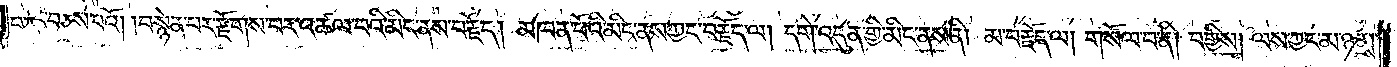པ་དང་བཅས་པའོ། །བསྙེན་པར་རྫོགས་པར་འཚལ་བའི་མིང་ནས་བརྗོད། མཁན་པོའི་མིང་ནས་ཀྱང་བརྗོད་ལ། དགེ་འདུན་གྱི་མིང་ནས་ནི། མ་བརྗོད་ལ། གསོལ་བ་ནི། བགྱིས། ལས་ཀྱང་མ་ཉམས་
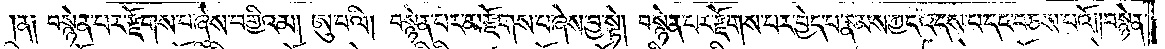ན༑ བསྙེན་པར་རྫོགས་པ་ཞེས་བགྱིའམ། ཨུ་པ་ལི། བསྙེན་པར་མ་རྫོགས་པ་ཞེས་བྱ་སྟེ། བསྙེན་པར་རྫོགས་པར་བྱེད་པ་རྣམས་ཀྱང་འདས་པ་དང་བཅས་པའོ། །བསྙེན་
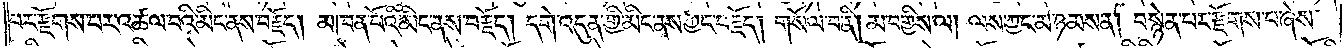པར་རྫོགས་པར་འཚལ་བའི་མིང་ནས་བརྗོད། མཁན་པོའི་མིང་ནས་བརྗོད། དགེ་འདུན་གྱི་མིང་ནས་ཀྱང་བརྗོད། གསོལ་བ་ནི། མ་བགྱིས་ལ། ལས་ཀྱང་མ་ཉམས་ན། བསྙེན་པར་རྫོགས་པ་ཞེས་
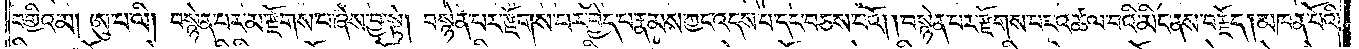བགྱིའམ། ཨུ་པ་ལི། བསྙེན་པར་མ་རྫོགས་པ་ཞེས་བྱ་སྟེ། བསྙེན་པར་རྫོགས་པར་བྱེད་པ་རྣམས་ཀྱང་འདས་པ་དང་བཅས་པའོ། །བསྙེན་པར་རྫོགས་པར་འཚལ་བའི་མིང་ནས་བརྗོད། མཁན་པོའི་
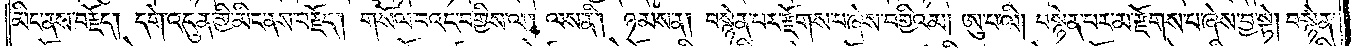མིང་ནས་བརྗོད། དགེ་འདུན་གྱི་མིང་ནས་བརྗོད། གསོལ་བའང་བགྱིས་ལ། ལས་ནི། ཉམས་ན། བསྙེན་པར་རྫོགས་པ་ཞེས་བགྱིའམ། ཨུ་པ་ལི། བསྙེན་པར་མ་རྫོགས་པ་ཞེས་བྱ་སྟེ། བསྙེན་
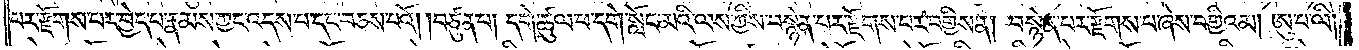པར་རྫོགས་པར་བྱེད་པ་རྣམས་ཀྱང་འདས་པ་དང་བཅས་པའོ། །བཙུན་པ། དགེ་ཚུལ་ཕ་དགེ་སློང་མའི་ལས་ཀྱིས་བསྙེན་པར་རྫོགས་པར་བགྱིས་ན། བསྙེན་པར་རྫོགས་པ་ཞེས་བགྱིའམ། ཨུ་པ་ལི།
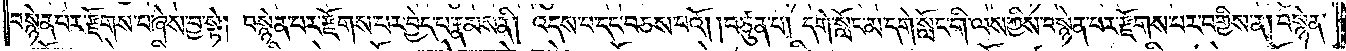བསྙེན་པར་རྫོགས་པ་ཞེས་བྱ་སྟེ། བསྙེན་པར་རྫོགས་པར་བྱེད་པ་རྣམས་ནི། འདས་པ་དང་བཅས་པའོ། །བཙུན་པ། དགེ་སློང་མ་དགེ་སློང་གི་ལས་ཀྱིས་བསྙེན་པར་རྫོགས་པར་བགྱིས་ན། བསྙེན་
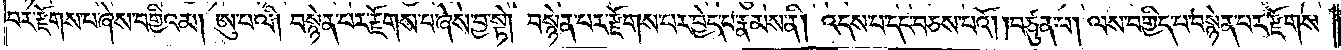པར་རྫོགས་པ་ཞེས་བགྱིའམ། ཨུ་པ་ལི། བསྙེན་པར་རྫོགས་པ་ཞེས་བྱ་སྟེ། བསྙེན་པར་རྫོགས་པར་བྱེད་པ་རྣམས་ནི། འདས་པ་དང་བཅས་པའོ། །བཙུན་པ། ལས་བགྱིད་པ་བསྙེན་པར་རྫོགས་
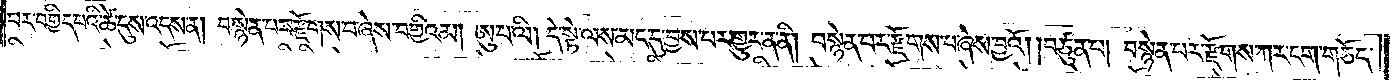པར་བགྱིད་པའི་ཚེ་དུས་འདས་ན། བསྙེན་པར་རྫོགས་པ་ཞེས་བགྱིའམ། ཨུ་པ་ལི། དེ་སྟེ་ལས་མང་དུ་བྱས་པར་གྱུར་ན་ནི། བསྙེན་པར་རྫོགས་པ་ཞེས་བྱའོ། །བཙུན་པ། བསྙེན་པར་རྫོགས་ཀར་ངག་གཅོད་
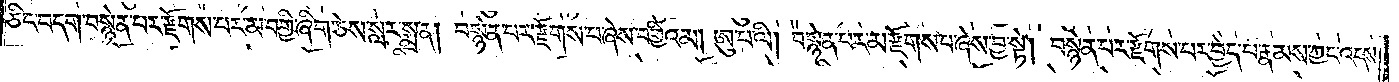ཅིང་བདག་བསྙེན་པར་རྫོགས་པར་མ་བགྱི་ཞིག་ཅེས་སླར་སྨྲ་ན། བསྙེན་པར་རྫོགས་པ་ཞེས་བགྱིའམ། ཨུ་པ་ལི། བསྙེན་པར་མ་རྫོགས་པ་ཞེས་བྱ་སྟེ། བསྙེན་པར་རྫོགས་པར་བྱེད་པ་རྣམས་ཀྱང་འདས་
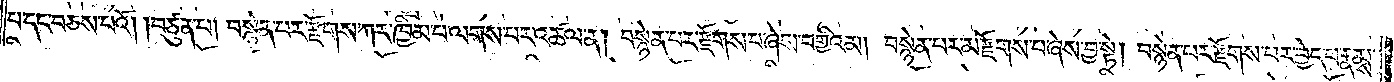པ་དང་བཅས་པའོ། །བཙུན་པ། བསྙེན་པར་རྫོགས་ཀར་ཁྱིམ་པ་ལགས་པར་འཚལ་ན། བསྙེན་པར་རྫོགས་པ་ཞེས་བགྱིའམ། བསྙེན་པར་མ་རྫོགས་པ་ཞེས་བྱ་སྟེ། བསྙེན་པར་རྫོགས་པར་བྱེད་པ་རྣམས་
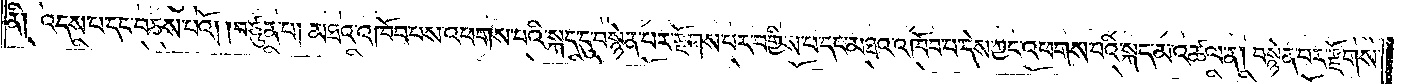ནི། འདས་པ་དང་བཅས་པའོ། །བཙུན་པ། མཐའ་འཁོབ་པས་འཕགས་པའི་སྐད་དུ་བསྙེན་པར་རྫོགས་པར་བགྱིས་པ་དང་མཐའ་འཁོབ་པ་དེས་ཀྱང་འཕགས་པའི་སྐད་མ་འཚལ་ན། བསྙེན་པར་རྫོགས་
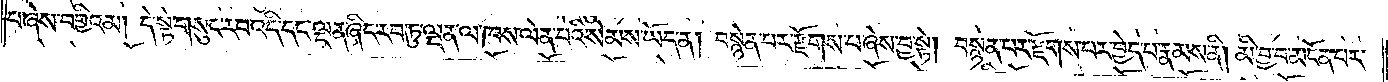པ་ཞེས་བགྱིའམ། དེ་སྟེ་གསུང་རབ་འདི་དང་ལྡན་ཞིང་རབ་ཏུ་ལྡན་ལ་ཁས་ལེན་པའི་སེམས་ཡོད་ན། བསྙེན་པར་རྫོགས་པ་ཞེས་བྱ་སྟེ། བསྙེན་པར་རྫོགས་པར་བྱེད་པ་རྣམས་ནི། མི་བྱ་བ་མངོན་པར་
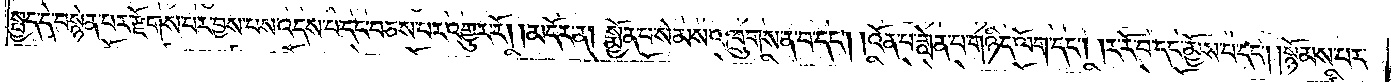སྤྱད་དེ་བསྙེན་པར་རྫོགས་པར་བྱས་པས་འདས་པ་དང་བཅས་པར་འགྱུར་རོ། མདོར་ན། སྨྱོན་པ་སེམས་འཁྲུགས་ན་བ་དང༌། །འོན་པ་གླེན་པ་གཉིད་ལོག་དང༌། །ར་རོ་བ་དང་མྱོས་པ་དང༌། སྙོམས་པར་
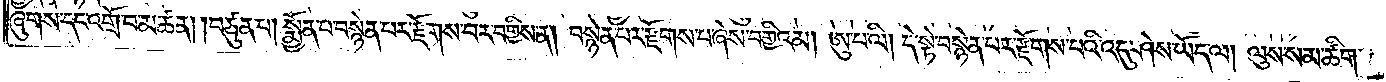ཞུགས་དང་འགྲོ་བ་མཚན། །བཙུན་པ། སྨྱོན་པ་བསྙེན་པར་རྫོགས་པར་བགྱིས་ན། བསྙེན་པར་རྫོགས་པ་ཞེས་བགྱིའམ། ཨུ་པ་ལི། དེ་སྟེ་བསྙེན་པར་རྫོགས་པའི་འདུས་ཤེས་ཡོད་ལ། ལུས་སམ་ཚིག་
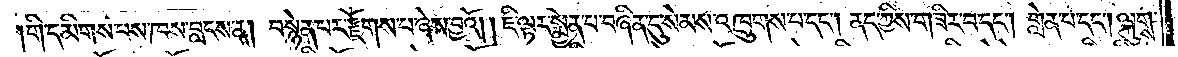།གི་དམིགས་པས་ཁས་བླངས་ན། བསྙེན་པར་རྫོགས་པ་ཞེས་བྱའོ། །ཇི་ལྟར་སྨྱོན་པ་བཞིན་དུ་སེམས་འཁྲུགས་པ་དང༌། ནད་ཀྱིས་གཟིར་བ་དང༌། གླེན་པ་དང༌། ལྐུགས་
